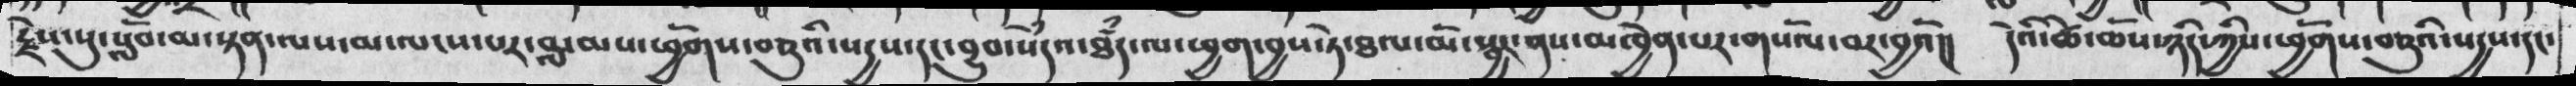རྗེས་སུ་སློབ་མ་སྟན་ལས་མ་ལངས་པར་བླ་མས་ཕྱོགས་བཅུའི་སདྱས་དང་བྱུབ་སེཾདའ་ཐཾད་ལ་ཕྱག་བྱས་ཏེ་ཐལ་མོ་སྦྱར་ནས་མཁྱེན་པར་གསོལ་བར་བྱའོ།།  དེའི་ཚེ་ཆོས་ཉིད་ཀྱིས་ཕྱོགས་བཅུའི་སདྱས་དང་
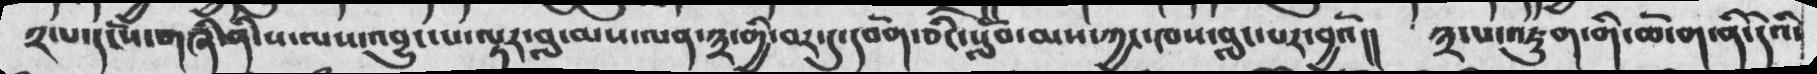༢་པ་དངོས་གཞི་ནི་ས་ལས་འབྱུང་པ་ལྟར་བླ་མས་ལན་༣་གྱི་བར་དུ་དབེན་ཅིང་སློབ་མས་ཀྱང་ཁས་བླང་པར་བྱའོ།། ༣་པ་འཇུག་གི་ཆོ་ག་ནི་དེའི་
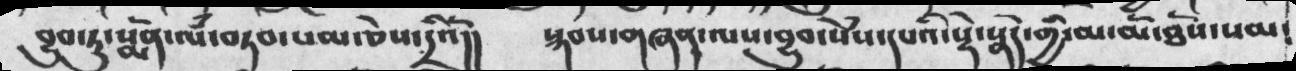བྱུབ་ཏུ་སྨོན་ལཾ་བཏབ་སམ་ཅེས་དྲིའོ།།  སྐབས་གཞན་ལས་བྱུབ་སེཾས་དཔའི་སྡེ་སྣོད་གྱི་མ་མོ་ཐོས་བསམ༴
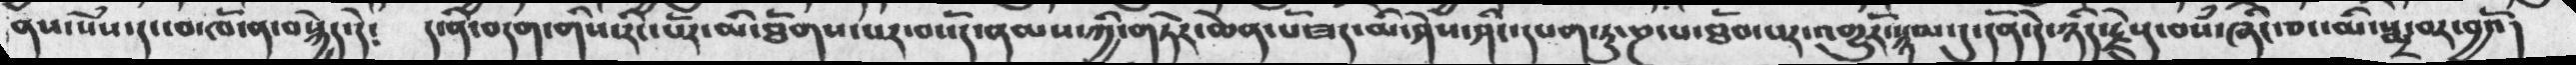ནས་སེཾས་དང་བ་ཁོ་ན་བསྐྱེད་དེ༴  ད་ནི་བདག་གིས་རིང་པོར་མི་ཐོགས་པར་བསོད་ནམས་ཀྱི་གཏེར་ཆེན་པོ་ཟད་མི་ཤེས་ཤིང་དཔག་ཏུ་ཎ་པ་ཐོབ་པར་འགྱུརོ་སྙམ་དུ་དོན་དེ་ཉིད་རྗེསུ་བསཾ་ཞིང་ཅང་མི་སྨྲ་བར་བྱའོ།
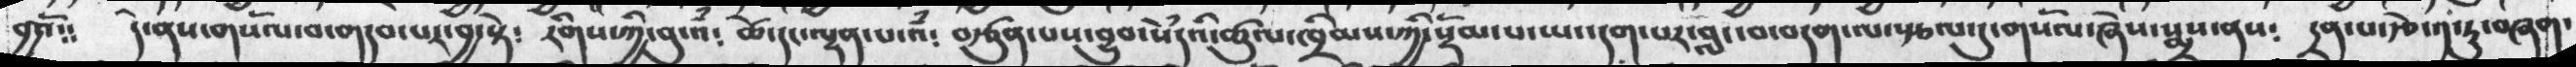བྱའོ༴༴  དེ་ནས་གསོལ་བ་གདབ་པར་བྱ་སྟེ༴ རིགས་ཀྱི་བུ་འཾ༴ ཚེ་དང་ལྡན་པ་འཾ༴ བརྩུན་པས་བྱུབ་སེཾདའི་ཚུལ་ཁྲིམས་ཀྱི་སྡོམ་པ་ཡང་དག་པར་བླང་བ་བདག་ལ་སྩལ་དུ་གསོལ་ཞེས་སྨྲས་ནས༴ དྲན་པ་རྩེ་༡་ཏུ་བཞག་
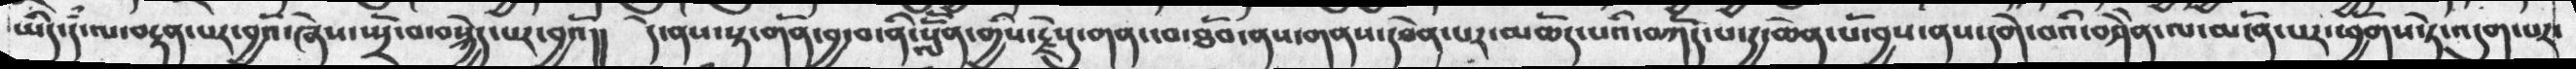ཡིད་དཾ་ལ་རྟན་པར་བྱའོ་ཞེས་སྤྲོ་བ་བསྐྱེད་པར་བྱའོ།། དེ་ནས་སྟ་གོན་བྱ་བ་ནི་སློོན་གྱིས་རྗེསུ་གནས་བ་ཐོབ་ནས་གནས་དབེན་པར་མཆོད་པའི་བཀོད་པ་དྱ་ཆེན་པོ་བྱས་ནས་དགེ་བའི་བཤེེན་ལ་མངོན་པར་ཕྱོགས་ཏེ་འདུག་པར་
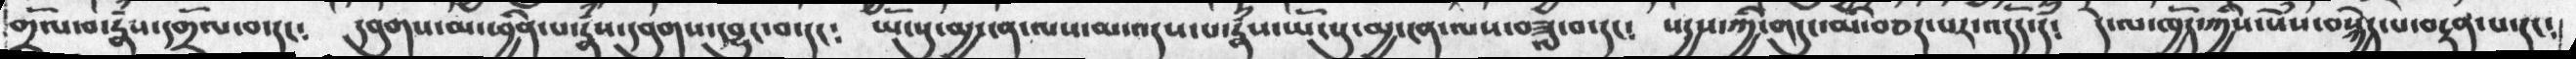གྲོལ་རྣཾས་དགྲོལ་བ་དང༴  དབུགས་མ་ཕྱིན་པ་རྣཾས་དབུགས་དབྱུང་བ་དང༴  ཡོངསུ་མྱ་ངན་ལས་མ་འདས་པ་རྣཾས་ཡོངསུ་མྱ་ངན་ལས་བཟླ་བ་དང༴  སདྱས་ཀྱི་གདུང་མི་བཅད་པར་འདོད་ོདོ༴  དེ་ལ་ཁྱོད་ཀྱིས་སེཾས་བསྐྱེད་པ་བརྟན་པ་དང༴
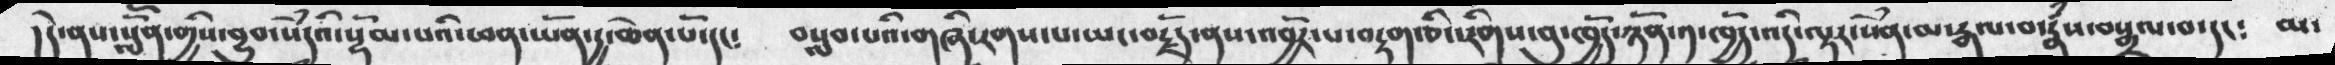།དེ་ནས་སློོན་གྱིས་བྱུབ་སེཾདའི་སྡོམ་པའི་ཕན་ཡོན་དྱ་ཆེན་པོ་དང༴  བསླབ་པའི་གཞི་རགས་པ་ཡང་བརྗོད་ནས་འབྱོར་པ་བརྟག་ཅི་རིགས་བུ་ཁྱོད་ཉོན་༡་ཁྱོད་འདི་ལྟར་སེཾན་མ་རྒལ་བ་རྣཾས་བསྒྲལ་བ་དང༴ མ་
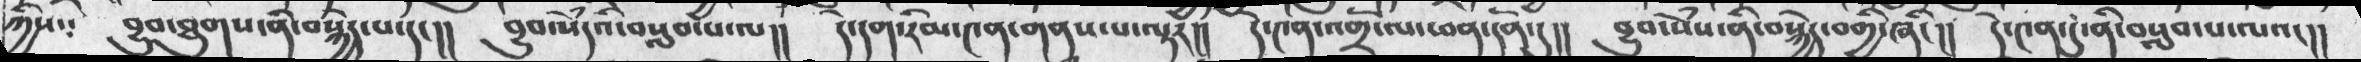ཀྱིས༴ བྱུབ་ཐུགས་བསྐྱེད་པ་དང།། བྱུབ་སེཾདའི་བསླབ་པ་ལ།། དེ་དག་རིམ་༤ན་གནས་པ་ལྟར།། དེ་༤ན་འགྲོ་ལ་ཕན་དོན་དུ།། བྱུབ་སེཾས་ནི་བསྐྱེད་བགྱི་ཞིང།། དེ་༤ན་དུ་ནི་བསླབ་པ་ལའང།།
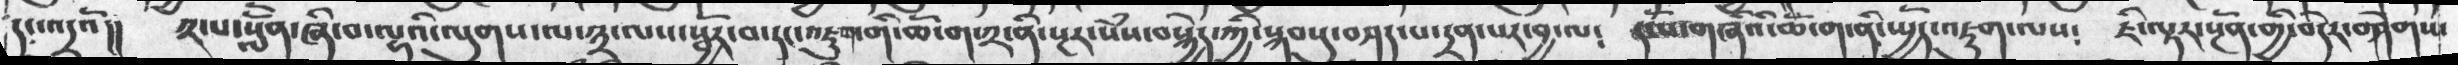དང་འདྲའོ།།  ༢་པ་སླཽན་ཞི་བ་ལྷའི་ལུགས་ལ་༣་ལས་སྦྱོར་བ་དང་འཇུག་གི་ཆོ་ག་༢་ནི་སྔར་སེཾས་བསྐྱེད་ཀྱི་སྐབསུ་བཤད་པ་དྲན་པར་བྱ་ལ༴  དངོས་གཞིའི་ཆོ་ག་ནི་སྤྱོད་འཇུག་ལས༴  ཇི་ལྟར་སྔོན་གྱི་བདེར་གཤེགས་
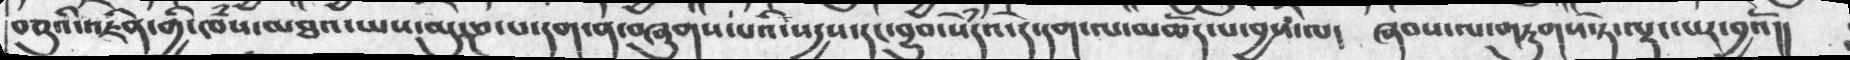བཅུའི་འཇིན་གྱི་ཁཾས་མཐའ་ཡས་མུ་ཎ་པ་དག་ན་བཞུགས་པའི་སདྱས་དང་བྱུབ་སེཾདའ་དེ་དག་ལ་མཆོད་པ་བྱས་ལ༴  ཞབས་ལ་གཏུགས་ཏེ་ལྡང་པར་བྱའོ།།
